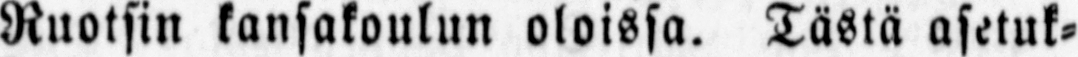Ruotsin kansakoulun oloissa. Tästä asetuk-
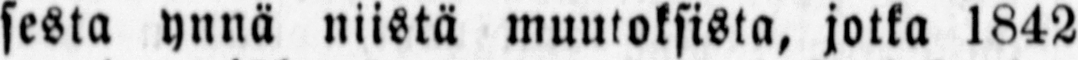sesta ynnä niistä muutoksista, jotka 1842
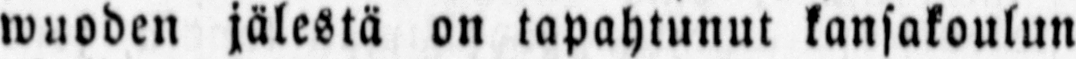wuoden jälestä on tapahtunut kansakoulun
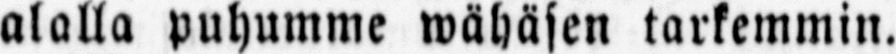alalla puhumme wähäsen tarkemmin.
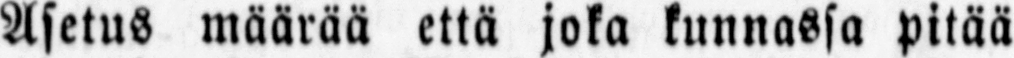Asetus määrää että joka kunnassa pitää
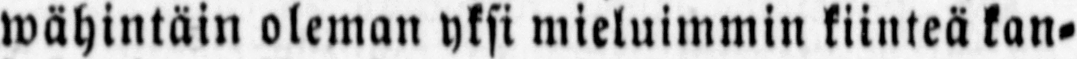wähintäin oleman yksi mieluimmin kiinteä kan-
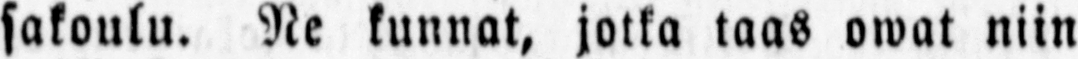sakoulu. Ne kunnat, jotka taas owat niin
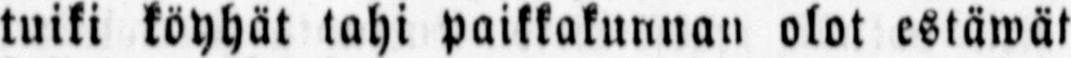tuiki köyhät tahi paikkakunnan olot estäwät
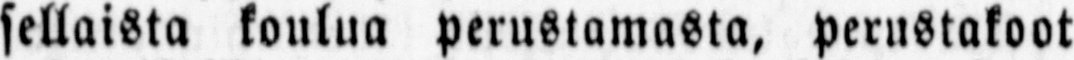sellaista koulua perustamasta, perustakoot
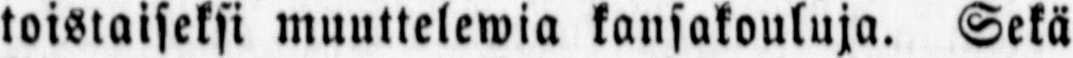toistaiseksi muuttelewia kansakouluja. Sekä
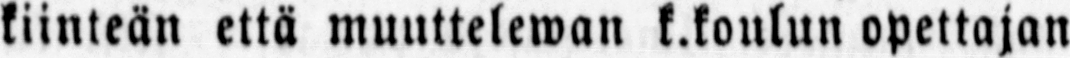kiinteän että muuttelewan k.koulun opettajan
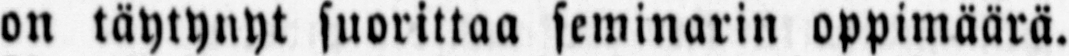on täytynyt sourittaa seminarin oppimäärä.
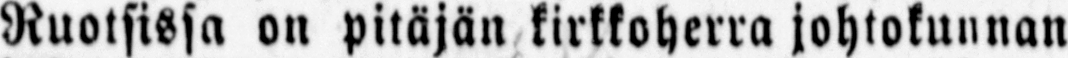Ruotsissa on pitäjän kirkkoherra johtokunnan
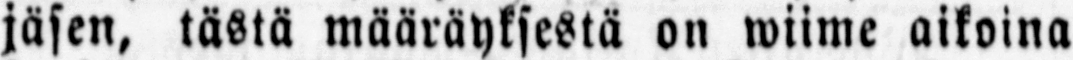jäsen, tästä määräyksestä on wiime aikoina
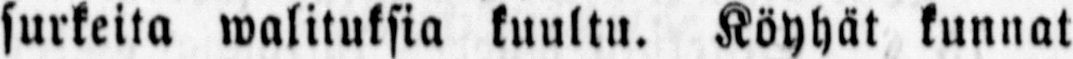surkeita walituksia kuultu. Köyhät kunnat
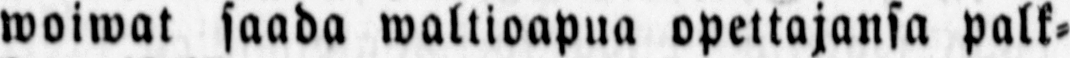woiwat saada waltioapua opettajansa palk-
